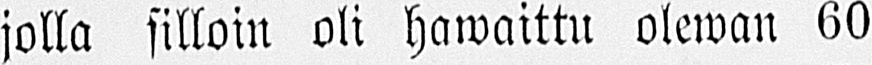jolla silloin oli hawaittu olewan 60
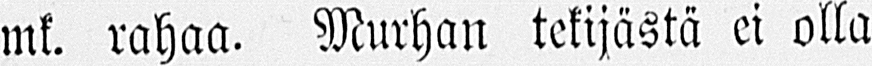mk. rahaa. Murhan tekijästä ei olla
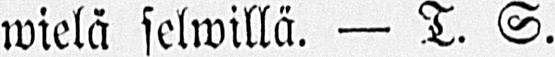wielä selwillä. — T. S.
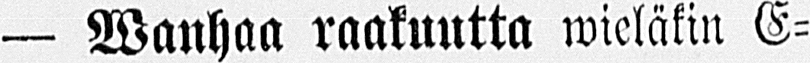— Wanhaa raakuutta wieläkin E-
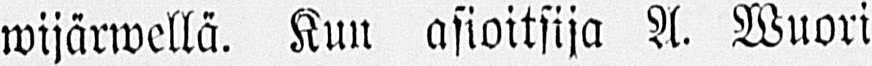wijärwellä. Kun asioituja A. Wuori
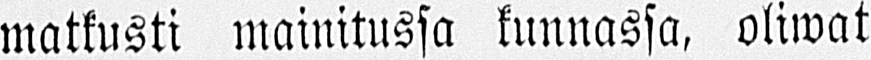matkusti mainitussa kunnassa, oliwat
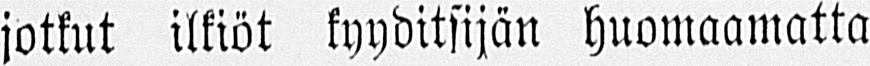jotkut ilkiöt kyyditsijän huomaamatta
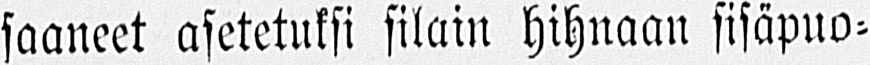saaneet asetetuksi silain hihnaan sisäpuo-
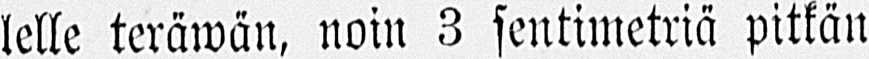lelle teräwän, noin 3 sentimetriä pitkän
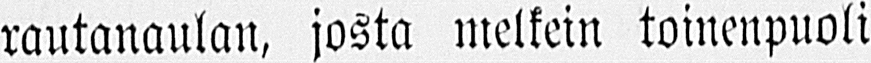rautanaulan, josta melkein toinenpuoli
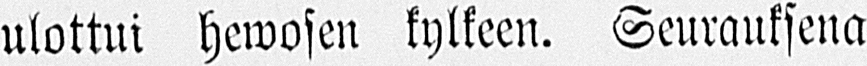ulottui Hewosen kylkeen. Seurauksena
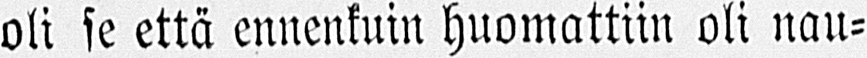oli se että ennenkuin huomattiin oli nau-
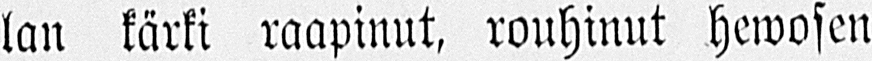lan kärki raapinut, rouhinut hewosen
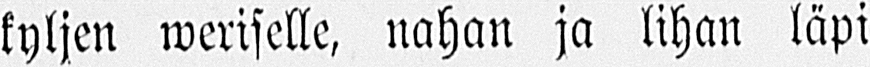kyljen weriselle, nahan ja lihan läpi
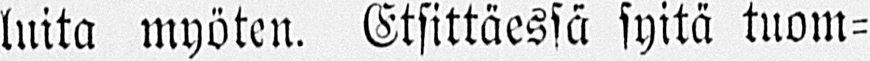luita myöten. Etsittäessä syitä tuom-
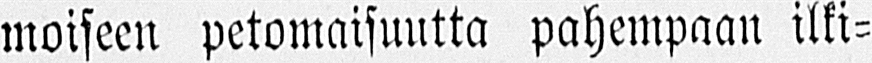moiseen petomaisuutta pahempaan ilki-
